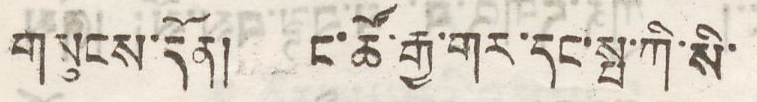གསུངས་དོན། ང་ཚོ་རྒྱ་གར་དང་སྤ་ཀི་སི་
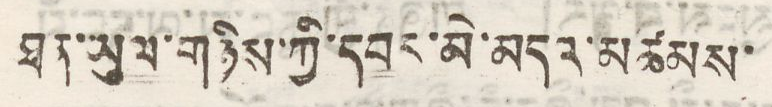ཐན་ཡུལ་གཉིས་ཀྱི་དབར་མེ་མདའ་མཚམས་
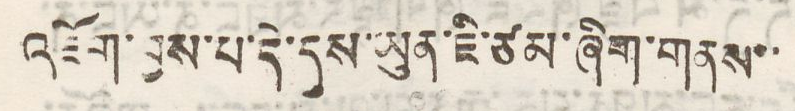འཇོག་བྱས་པ་དེ་དུས་ཡུན་ཇི་ཙམ་ཞིག་གནས་་
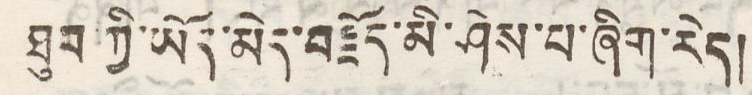ཐུབ་ཀྱི་ཡོད་མེད་བརྗོད་མི་ཤེས་པ་ཞིག་རེད།
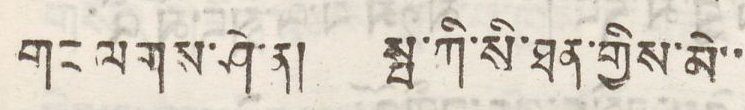གང་ལགས་ཤེ་ན། སྤ་ཀི་སི་ཐན་གྱིས་མི་་
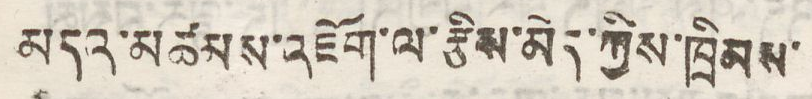མདའ་མཚམས་འཇོག་ལ་རྩིས་མེད་ཀྱིས་ཁྲིམས་
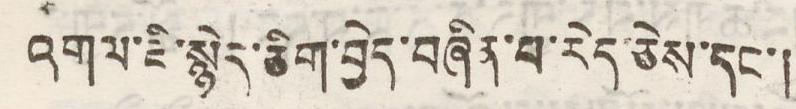འགལ་ཇི་སྙེད་ཅིག་བྱེད་བཞིན་པ་རེད་ཅེས་དང་།
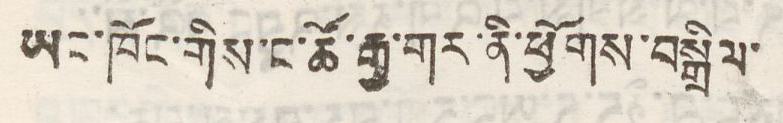ཡང་ཁོང་གིས་ང་ཚོ་རྒྱ་གར་ནི་ཕྱོགས་བསྒྲིལ་
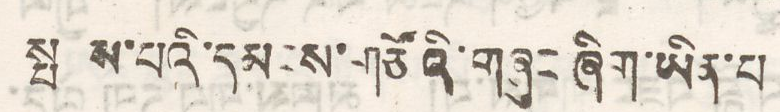སྤ ས་པའི་དམངས་གཙོའི་གཞུང་ཞིག་ཡིན་པ
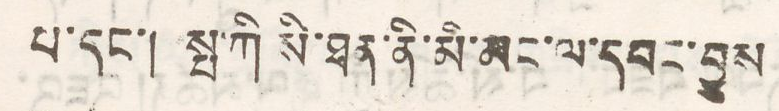པ་དང་། སྤ་ཀི་སི་ཐན་ནི་མི་མང་ལ་དབང་བྱུས་
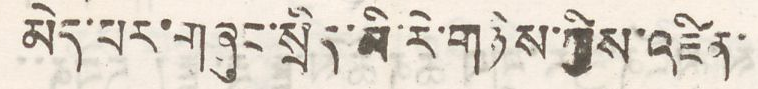མེད་པར་གཞུང་སྲིད་མི་རེ་གཉིས་ཀྱིས་འཛིན་
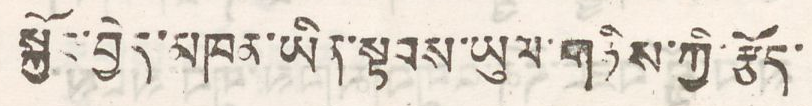སྐྱོང་བྱེད་མཁན་ཡིན་སྟབས་ཡུལ་གཉིས་ཀྱི་རྩོད་
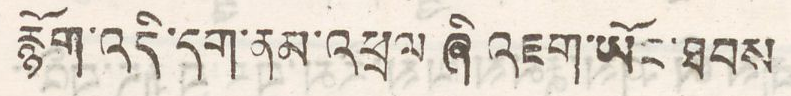རྙོག་འདི་དག་ནམ་འཕྲལ ཞི འཇག་ཡོང་ཐབས
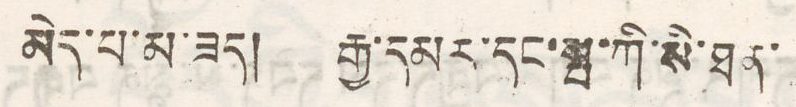མེད་པ་མ་ཟད། རྒྱ་དམར་དང་སྤ་ཀི་སི་ཐན་
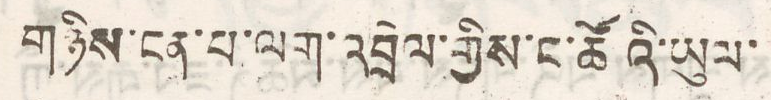གཉིས་ངན་པ་ལག་འབྲེལ་གྱིས་ང་ཚོའི་ཡུལ་
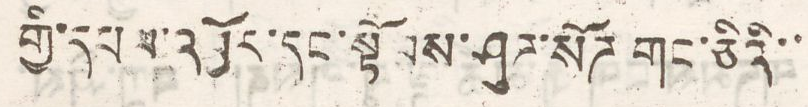གྱི་དཔལ་འབྱོར་དང་སྟོབས་ཤུཌ་སོཌ གང་ཅིའི་་
